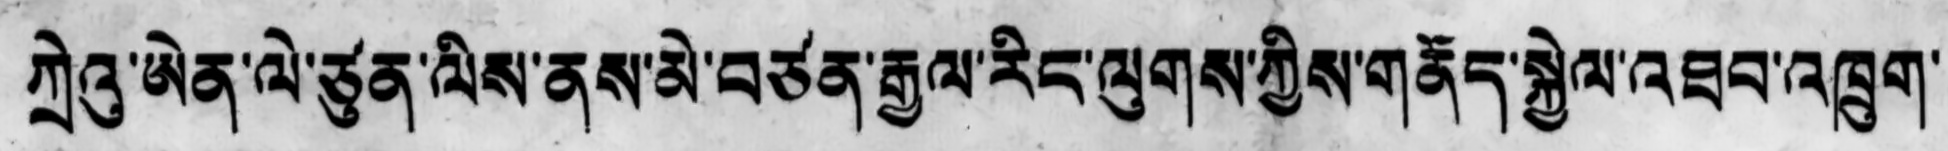ཀྲེའུ་ཨེན་ལེ་ཙུན་ལིས་ནས་མེ་བཙན་རྒྱལ་རིང་ལུགས་ཀྱིས་གནོད་སྐྱེལ་འཐབ་འཁྲུག་
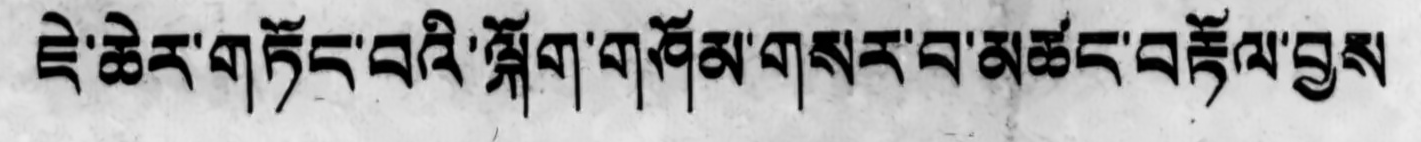ཇེ་ཆེར་གཏོང་བའི་ལྐོག་གཤོམ་གསར་བ་མཚང་བརྟོལ་བྱས
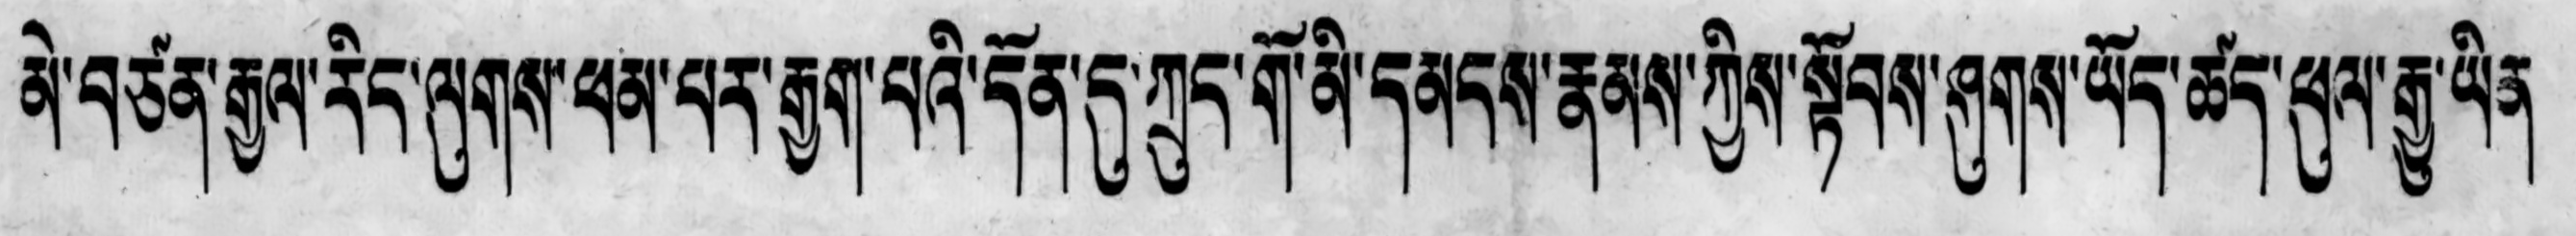མེ་བཙན་རྒྱལ་རིང་ལུགས་ཕན་པར་རྒྱག་པའི་དོན་ཏུ་ཀྲུང་གོ་མི་དམངས་རྣམས་ཀྱིས་སྟོབས་ཞུགས་ཡོད་ཚད་ཕུལ་རྒྱུ་ཡིན
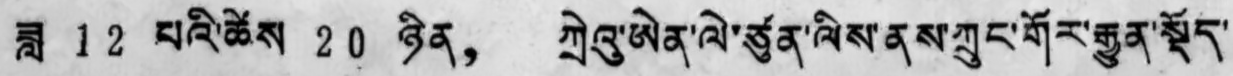ཟླ 12 པའི་ཚེས 20 ཉིན， ཀྲེའུ་ཨེན་ལེ་ཙུན་ལིས་ནས་ཀྲུང་གོར་རྒྱུན་སྡོད་
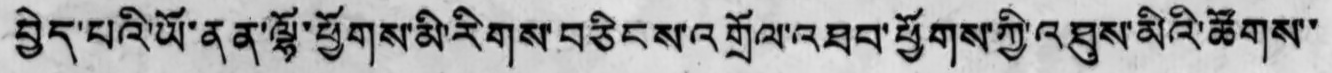བྱེད་པའི་ཡོ་ནན་ལྷོ་ཕྱོགས་མི་རིགས་བཅིངས་འགྲོལ་འཐབ་ཕྱོགས་ཀྱི་འཐུས་མིའི་ཚོགས་་
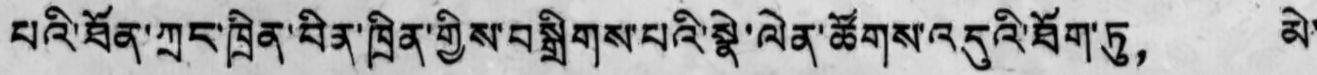པའི་ཐོན་ཀྲང་ཁྲིན་བིན་ཁྲིན་གྱིས་བསྒྲིགས་པའི་སྣེ་ལེན་ཚོགས་འདུའི་ཐོག་ཏུ， མེ་
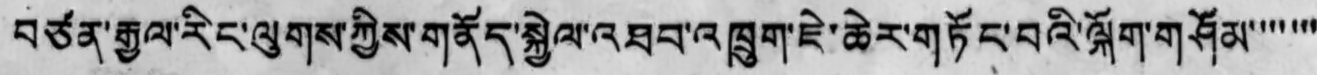བཙན་རྒྱལ་རིང་ལུགས་ཀྱིས་གནོད་སྐྱེལ་འཐབ་འཁྲུག་ཇེ་ཆེར་གཏོང་བའི་ལྐོག་གཤོམ་་་་་་་
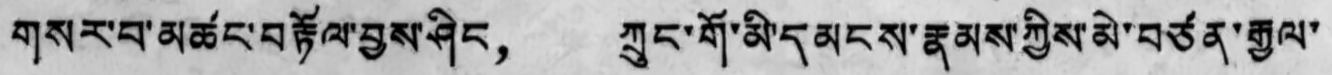གསར་བ་མཚང་བརྟོལ་བྱས་ཤིང， ཀྲུང་གོ་མི་དམངས་རྣམས་ཀྱིས་མེ་བཙན་རྒྱལ་
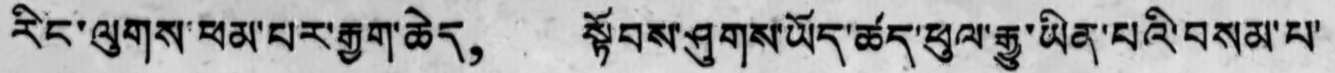རིང་ལུགས་ཕམ་པར་རྒྱག་ཆེད， སྟོབས་ཤུགས་ཡོད་ཚད་ཕུལ་རྒྱུ་ཡིན་པའི་བསམ་པ་
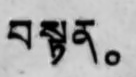བསྟན。
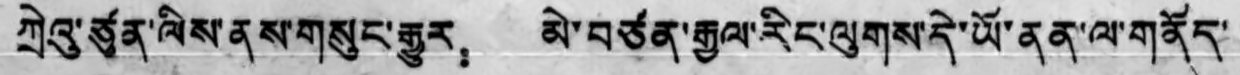ཀྲེའུ་ཙུན་ལིས་ནས་གསུང་རྒྱུར： མེ་བཙན་རྒྱལ་རིང་ལུགས་དེ་ཡོ་ནན་ལ་གནོད་
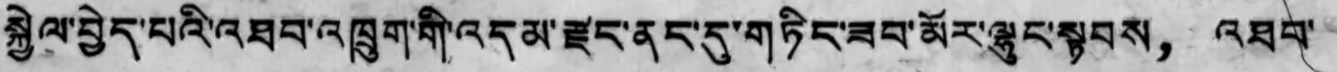སྐྱེལ་བྱེད་པའི་འཐབ་འཁྲུག་གི་འདམ་རྫུང་ནད་དུ་གཏིང་ཟབ་མོར་ལྷུང་སྟབས， འཐབ་
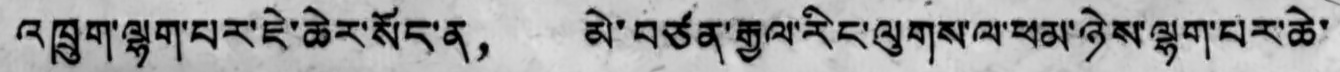འཁྲུག་ལྷག་པར་ཇེ་ཆེར་སོང་ན， མེ་བཙན་རྒྱལ་རིང་ལུགས་ལ་ཕམ་ཉེས་ལྷག་པར་ཆེ་
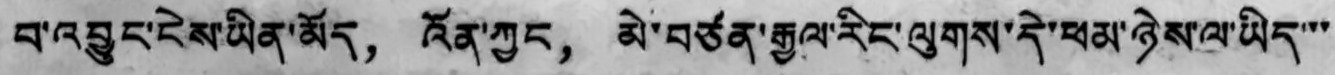བ་འབྱུང་ངེས་ཡིན་མོད， འོན་ཀྱང， མེ་བཙན་རྒྱལ་རིང་ལུགས་དེ་ཕམ་ཉེས་ལ་ཡིད་་་
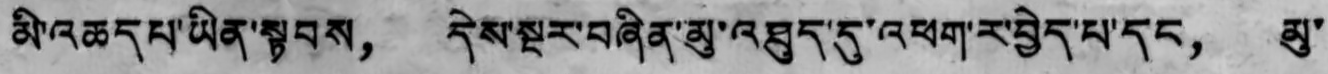མི་འཆདཔ་ཡིན་སྟབས， དེས་སྔར་བཞིན་མུ་འཐུད་དུ་འཕག་ར་བྱེད་པ་དང， མུ་
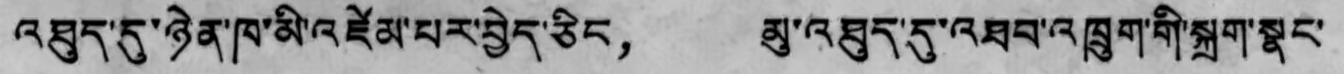འཐུད་དུ་ཉེན་ཁ་མི་འཛེམ་པར་བྱེད་ཅིང， མུ་འཐུད་དུ་འཐབ་འཁྲུག་གི་སྐྲག་སྣང་
